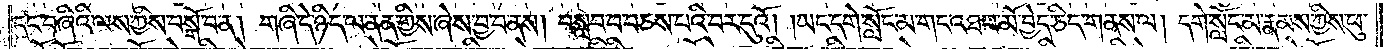དང་བཞིའི་ལས་ཀྱིས་བསྒོ་བ་ན། གཞི་དེ་ཉིད་ལ་ནན་གྱིས་ཞེས་བྱ་བ་ནས། བསླབ་པ་བཅས་པའི་བར་དུའོ། །ཡང་དགེ་སློང་མ་གང་འཐབ་མོ་བྱེད་ཅིང་གནས་ལ། དགེ་སློང་མ་རྣམས་ཀྱིས་ཕུ་
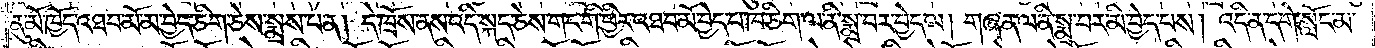ནུ་མོ་ཁྱོད་འཐབ་མོ་མ་བྱེད་ཅིག་ཅེས་སྨྲས་པ་ན། དེ་ཁྲོས་ནས་འདི་སྐད་ཅེས་གང་གི་ཕྱིར་འཐབ་མོ་བྱེད་པ་ཁ་ཅིག་ལ་ནི་སྨྲ་བར་བྱེད་ལ། གཞན་ལ་ནི་སྨྲ་བར་མི་བྱེད་པས། འདི་ན་དགེ་སློང་མ་
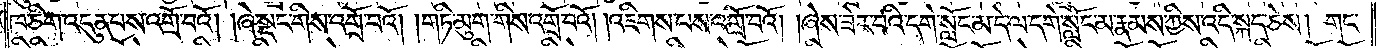ཁ་ཅིག་འདུན་པས་འགྲོ་བའོ། །ཞེ་སྡང་གིས་འགྲོ་བའོ། །གཏི་མུག་གིས་འགྲོ་བའོ། །འཇིགས་པས་འགྲོ་བའོ། །ཞེས་ཟེར་བའི་དགེ་སློང་མ་དེ་ལ་དགེ་སློང་མ་རྣམས་ཀྱིས་འདི་སྐད་ཅེས། གང་
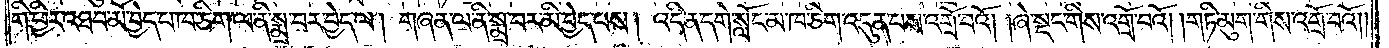གི་ཕྱིར་འཐབ་མོ་བྱེད་པ་ཁ་ཅིག་ལ་ནི་སྨྲ་བར་བྱེད་ལ། གཞན་ལ་ནི་སྨྲ་བར་མི་བྱེད་པས། འདི་ན་དགེ་སློང་མ་ཁ་ཅིག་འདུན་པས་འགྲོ་བའོ། །ཞེ་སྡང་གིས་འགྲོ་བའོ། །གཏི་མུག་གིས་འགྲོ་བའོ། །
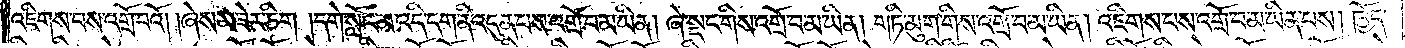འཇིགས་པས་འགྲོ་བའོ། །ཞེས་མ་ཟེར་ཅིག །དགེ་སློང་མ་འདི་དག་ནི་འདུན་པས་འགྲོ་བ་མ་ཡིན། ཞེ་སྡང་གིས་འགྲོ་བ་མ་ཡིན། གཏི་མུག་གིས་འགྲོ་བ་མ་ཡིན། འཇིགས་པས་འགྲོ་བ་མ་ཡིན་པས། ཁྱོད་
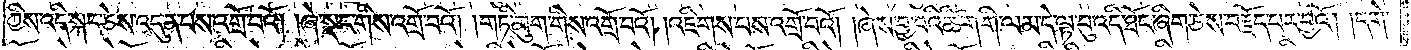ཀྱིས་འདི་སྐད་ཅེས་འདུན་པས་འགྲོ་བའོ། །ཞེ་སྡང་གིས་འགྲོ་བའོ། །གཏི་མུག་གིས་འགྲོ་བའོ། །འཇིགས་པས་འགྲོ་བའོ། །ཞེས་བྱ་བའི་ཚིག་གི་ལམ་དེ་ལྟ་བུ་འདི་ཐོང་ཞིག་ཅེས་བརྗོད་པར་བྱའོ། །དགེ་
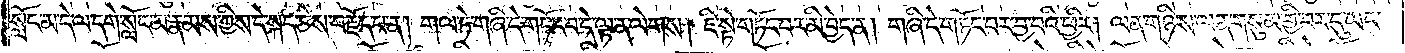སློང་མ་དེ་ལ་དགེ་སློང་མ་རྣམས་ཀྱིས་དེ་སྐད་ཅེས་བརྗོད་པ་ན། གལ་ཏེ་གཞི་དེ་གཏོང་བ་དེ་ལྟ་ན་ལེགས། ཇི་སྟེ་གཏོང་བར་མི་བྱེད་ན། གཞི་དེ་གཏོང་བར་བྱ་བའི་ཕྱིར། ལན་གཉིས་ལན་གསུམ་གྱི་བར་དུ་ཡང་
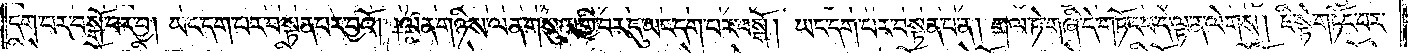དག་པར་བསྒོ་བར་བྱ། ཡང་དག་པར་བསྟན་པར་བྱའོ། །ལན་གཉིས་ལན་གསུམ་གྱི་བར་དུ་ཡང་དག་པར་བསྒོ། ཡང་དག་པར་བསྟན་པ་ན། གལ་ཏེ་གཞི་དེ་གཏོང་བ་དེ་ལྟ་ན་ལེགས། ཇི་སྟེ་གཏོང་བར་
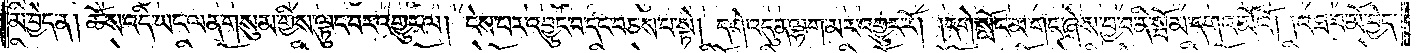མི་བྱེད་ན། ཆོས་འདི་ཡང་ལན་གསུམ་གྱིས་ལྟུང་བར་འགྱུར་ལ། ངེས་པར་འབྱུང་བ་དང་བཅས་པ་སྟེ། དགེ་འདུན་ལྷག་མར་འགྱུར་རོ། །དགེ་སློང་མ་གང་ཞེས་བྱ་བ་ནི་སྦོམ་དགའ་མོའོ། །འཐབ་མོ་བྱེད་
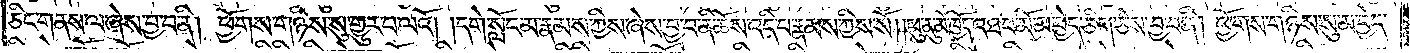ཅིང་གནས་ལ་ཞེས་བྱ་བ་ནི། ཕྱོགས་གཉིས་སུ་གྱུར་པ་ལའོ། །དགེ་སློང་མ་རྣམས་ཀྱིས་ཞེས་བྱ་བ་ནི་ཆོས་འདི་པ་རྣམས་ཀྱིས་སོ། །ཕུ་ནུ་མོ་ཁྱོད་འཐབ་མོ་མ་བྱེད་ཅིག་ཅེས་བྱ་བ་ནི། ཕྱོགས་གཉིས་སུ་མ་བྱེད་
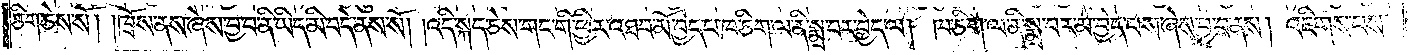ཅིག་ཅེས་སོ། །ཁྲོས་ནས་ཞེས་བྱ་བ་ནི་ཡིད་མི་བདེ་ནས་སོ། །འདི་སྐད་ཅེས་གང་གི་ཕྱིར་འཐབ་མོ་བྱེད་པ་ཁ་ཅིག་ལ་ནི་སྨྲ་བར་བྱེད་ལ། ཁ་ཅིག་ལ་ནི་སྨྲ་བར་མ་བྱེད་པས་ཞེས་བྱ་བ་ནས། འཇིགས་པས་
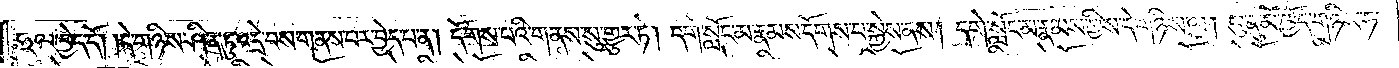ཧྲལ་ཕྱེད་དོ། །དེ་གཉིས་ཤིན་ཏུ་འདྲེ་བས་གནས་པར་བྱེད་པ་ན། དོགས་པའི་གནས་སུ་གྱུར་ཏེ། དགེ་སློང་མ་རྣམས་དོགས་པ་སྐྱེས་ནས། དགེ་སློང་མ་རྣམས་ཀྱིས་དེ་གཉིས་ལ། ཕུ་ནུ་མོ་ཁྱོད་གཉིས་ཧ་
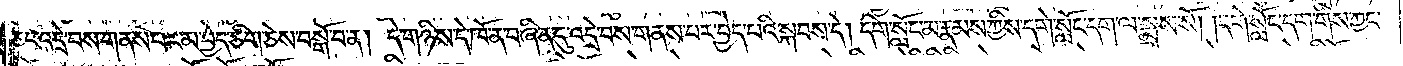ཅང་འདྲེ་བས་གནས་པར་མ་བྱེད་ཅིག་ཅེས་བསྒོ་བ་ན། དེ་གཉིས་དེ་ཁོ་ན་བཞིན་དུ་འདྲེ་བས་གནས་པར་བྱེད་པའི་སྐབས་དེ། དགེ་སློང་མ་རྣམས་ཀྱིས་དགེ་སློང་དག་ལ་སྨྲས་སོ། །དགེ་སློང་དག་གིས་ཀྱང་
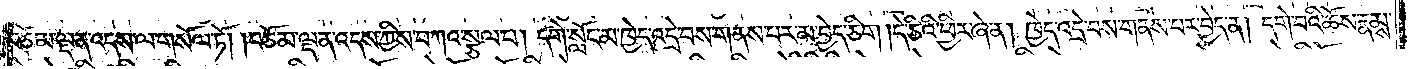བཅོམ་ལྡན་འདས་ལ་གསོལ་ཏོ། །བཅོམ་ལྡན་འདས་ཀྱིས་བཀའ་སྩལ་པ། དགེ་སློང་མ་ཁྱེད་འདྲེ་བས་གནས་པར་མ་བྱེད་ཅིག །དེ་ཅིའི་ཕྱིར་ཞེ་ན། ཁྱེད་འདྲེ་བས་གནས་པར་བྱེད་ན། དགེ་བའི་ཆོས་རྣམས་
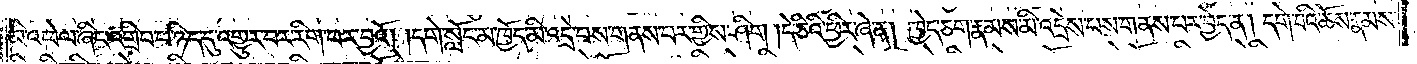མི་འཕེལ་ཞིང་འགྲིབ་པ་ཉིད་དུ་འགྱུར་བར་རིག་པར་བྱའོ། །དགེ་སློང་མ་ཁྱོད་མི་འདྲེ་བས་གནས་པར་གྱིས་ཤིག །དེ་ཅིའི་ཕྱིར་ཞེ་ན། ཁྱོད་ཅག་རྣམས་མི་འདྲེས་པས་གནས་པར་བྱེད་ན། དགེ་བའི་ཆོས་རྣམས་
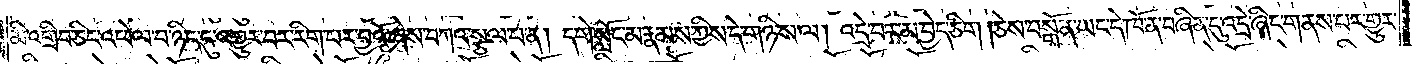མི་འགྲིབ་ཅིང་འཕེལ་བ་ཉིད་དུ་འགྱུར་བར་རིག་པར་བྱའོ་ཞེས་བཀའ་སྩལ་པ་ན། དགེ་སློང་མ་རྣམས་ཀྱིས་དེ་གཉིས་ལ། འདྲེ་བར་མ་བྱེད་ཅིག །ཅེས་བསྒོ་ན་ཡང་དེ་ཁོ་ན་བཞིན་དུ་འདྲེ་ཞིང་གནས་པར་གྱུར་
